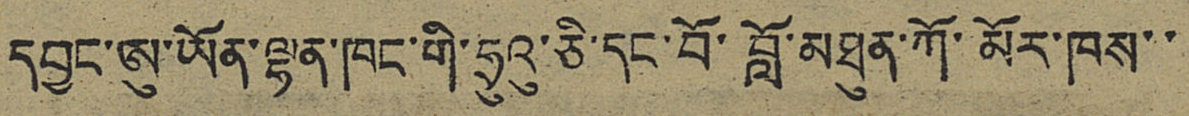དབྱང་ཨུ་ཡོན་ལྷན་ཁང་གི་ཧྲུའུ་ཅི་དང་བོ་བློ་མཐུན་གོ་མོར་ཁས་་
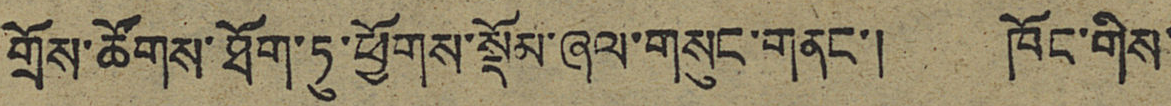གྲོས་ཚོགས་ཐོག་ཏུ་ཕྱོགས་སྡོམ་ཞལ་གསུང་གནང་། ཁོང་གིས་
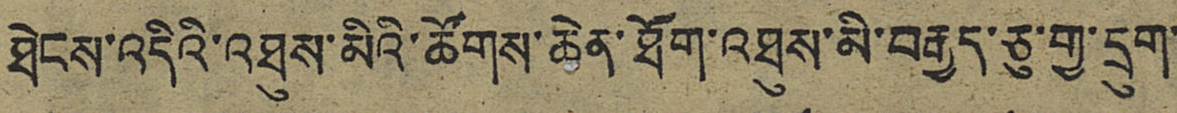ཐེངས་འདིའི་འཐུས་མིའི་ཚོགས་ཆེན་ཐོག་འཐུས་མི་བརྒྱད་ཅུ་གྱ་དྲུག་
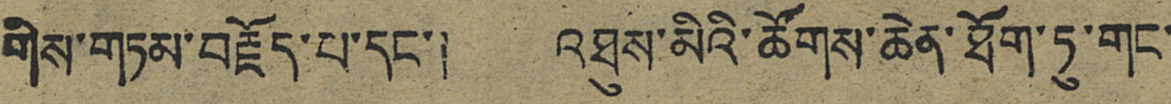གིས་གཏམ་བརྗོད་པ་དང་། འཐུས་མིའི་ཚོགས་ཆེན་ཐོག་ཏུ་གང་
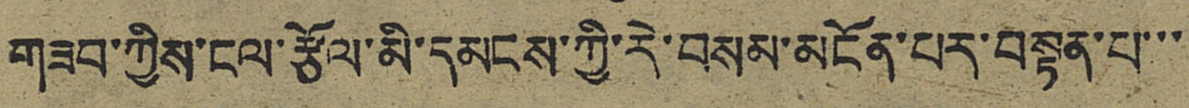གཟབ་ཀྱིས་ངལ་རྩོལ་མི་དམངས་ཀྱི་རེ་བསམ་མངོན་པར་བསྟན་པ་་་
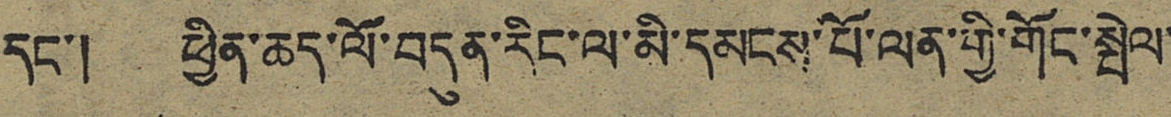དང་། ཕྱིན་ཆད་ལོ་བདུན་རིང་ལ་མི་དམངས་པོ་ལན་གྱི་གོང་སྤེལ་
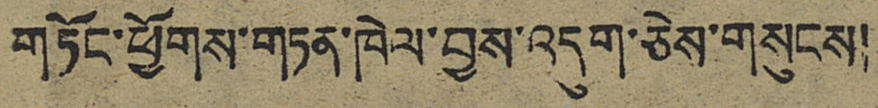གཏོང་ཕྱོགས་གཏན་ཁེལ་བྱས་འདུག་ཅེས་གསུངས།
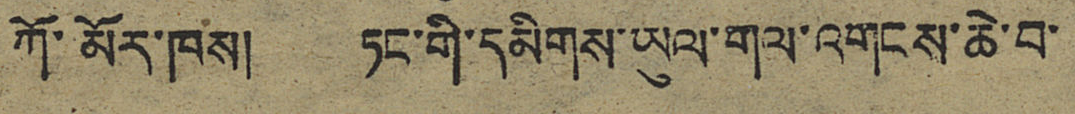ཀོ་མོར་ཁས། ཏང་གི་དམིགས་ཡུལ་གལ་འགངས་ཆེ་བ་
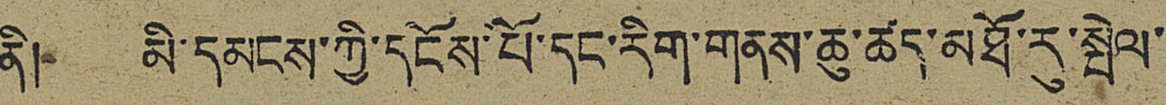ནི། མི་དམངས་ཀྱི་དངོས་པོ་དང་རིག་གནས་ཆུ་ཚད་མཐོ་རུ་སྤེལ་
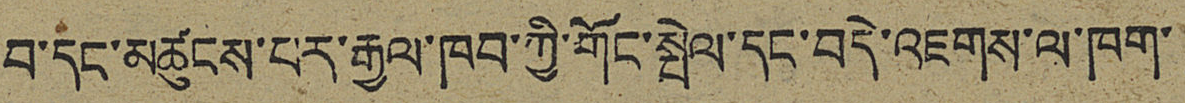བ་དང་མཚུངས་པར་རྒྱལ་ཁབ་ཀྱི་གོང་སྤེལ་དང་བདེ་འཇགས་ལ་ཁག་
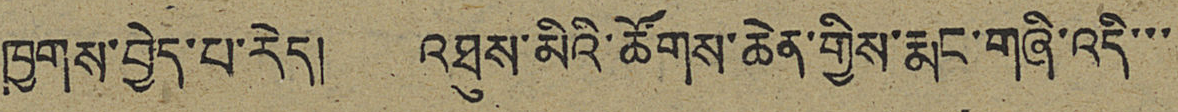ཁྱགས་བྱེད་པ་རེད། འཐུས་མིའི་ཚོགས་ཆེན་གྱིས་རྨང་གཞི་འདི་་་
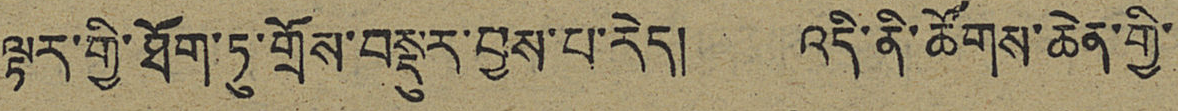ལྟར་གྱི་ཐོག་ཏུ་གྲོས་བསྡུར་བྱས་པ་རེད། འདི་ནི་ཚོགས་ཆེན་གྱི་
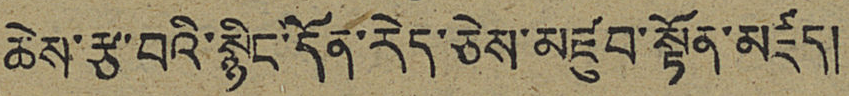ཆེས་རྩ་བའི་སྙིང་དོན་རེད་ཅེས་མཛུབ་སྟོན་མཛད།
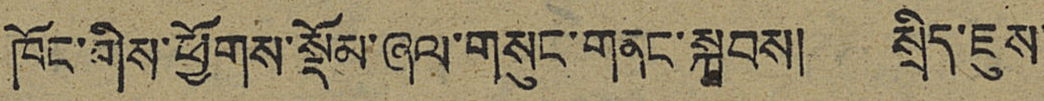ཁོང་གིས་ཕྱོགས་སྡོམ་ཞལ་གསུང་གནང་སྐབས། སྲིད་ཇུས་
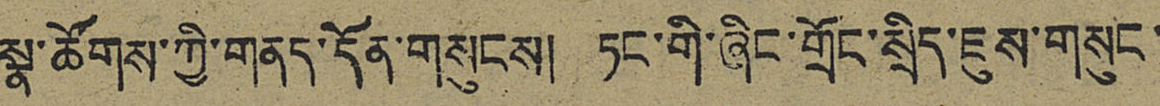སྣ་ཚོགས་ཀྱི་གནད་དོན་གསུངས། ཏང་གི་ཞིང་གྲོང་སྲིད་ཇུས་གསུང་
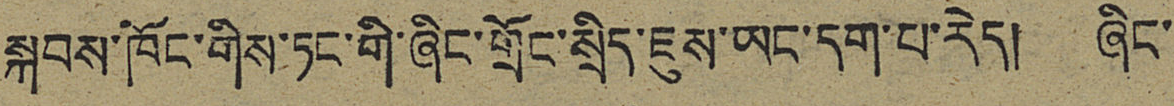སྐབས་ཁོང་གིས་ཏང་གི་ཞིང་གྲོང་སྲིད་ཇུས་ཡང་དག་པ་རེད། ཞིང་
